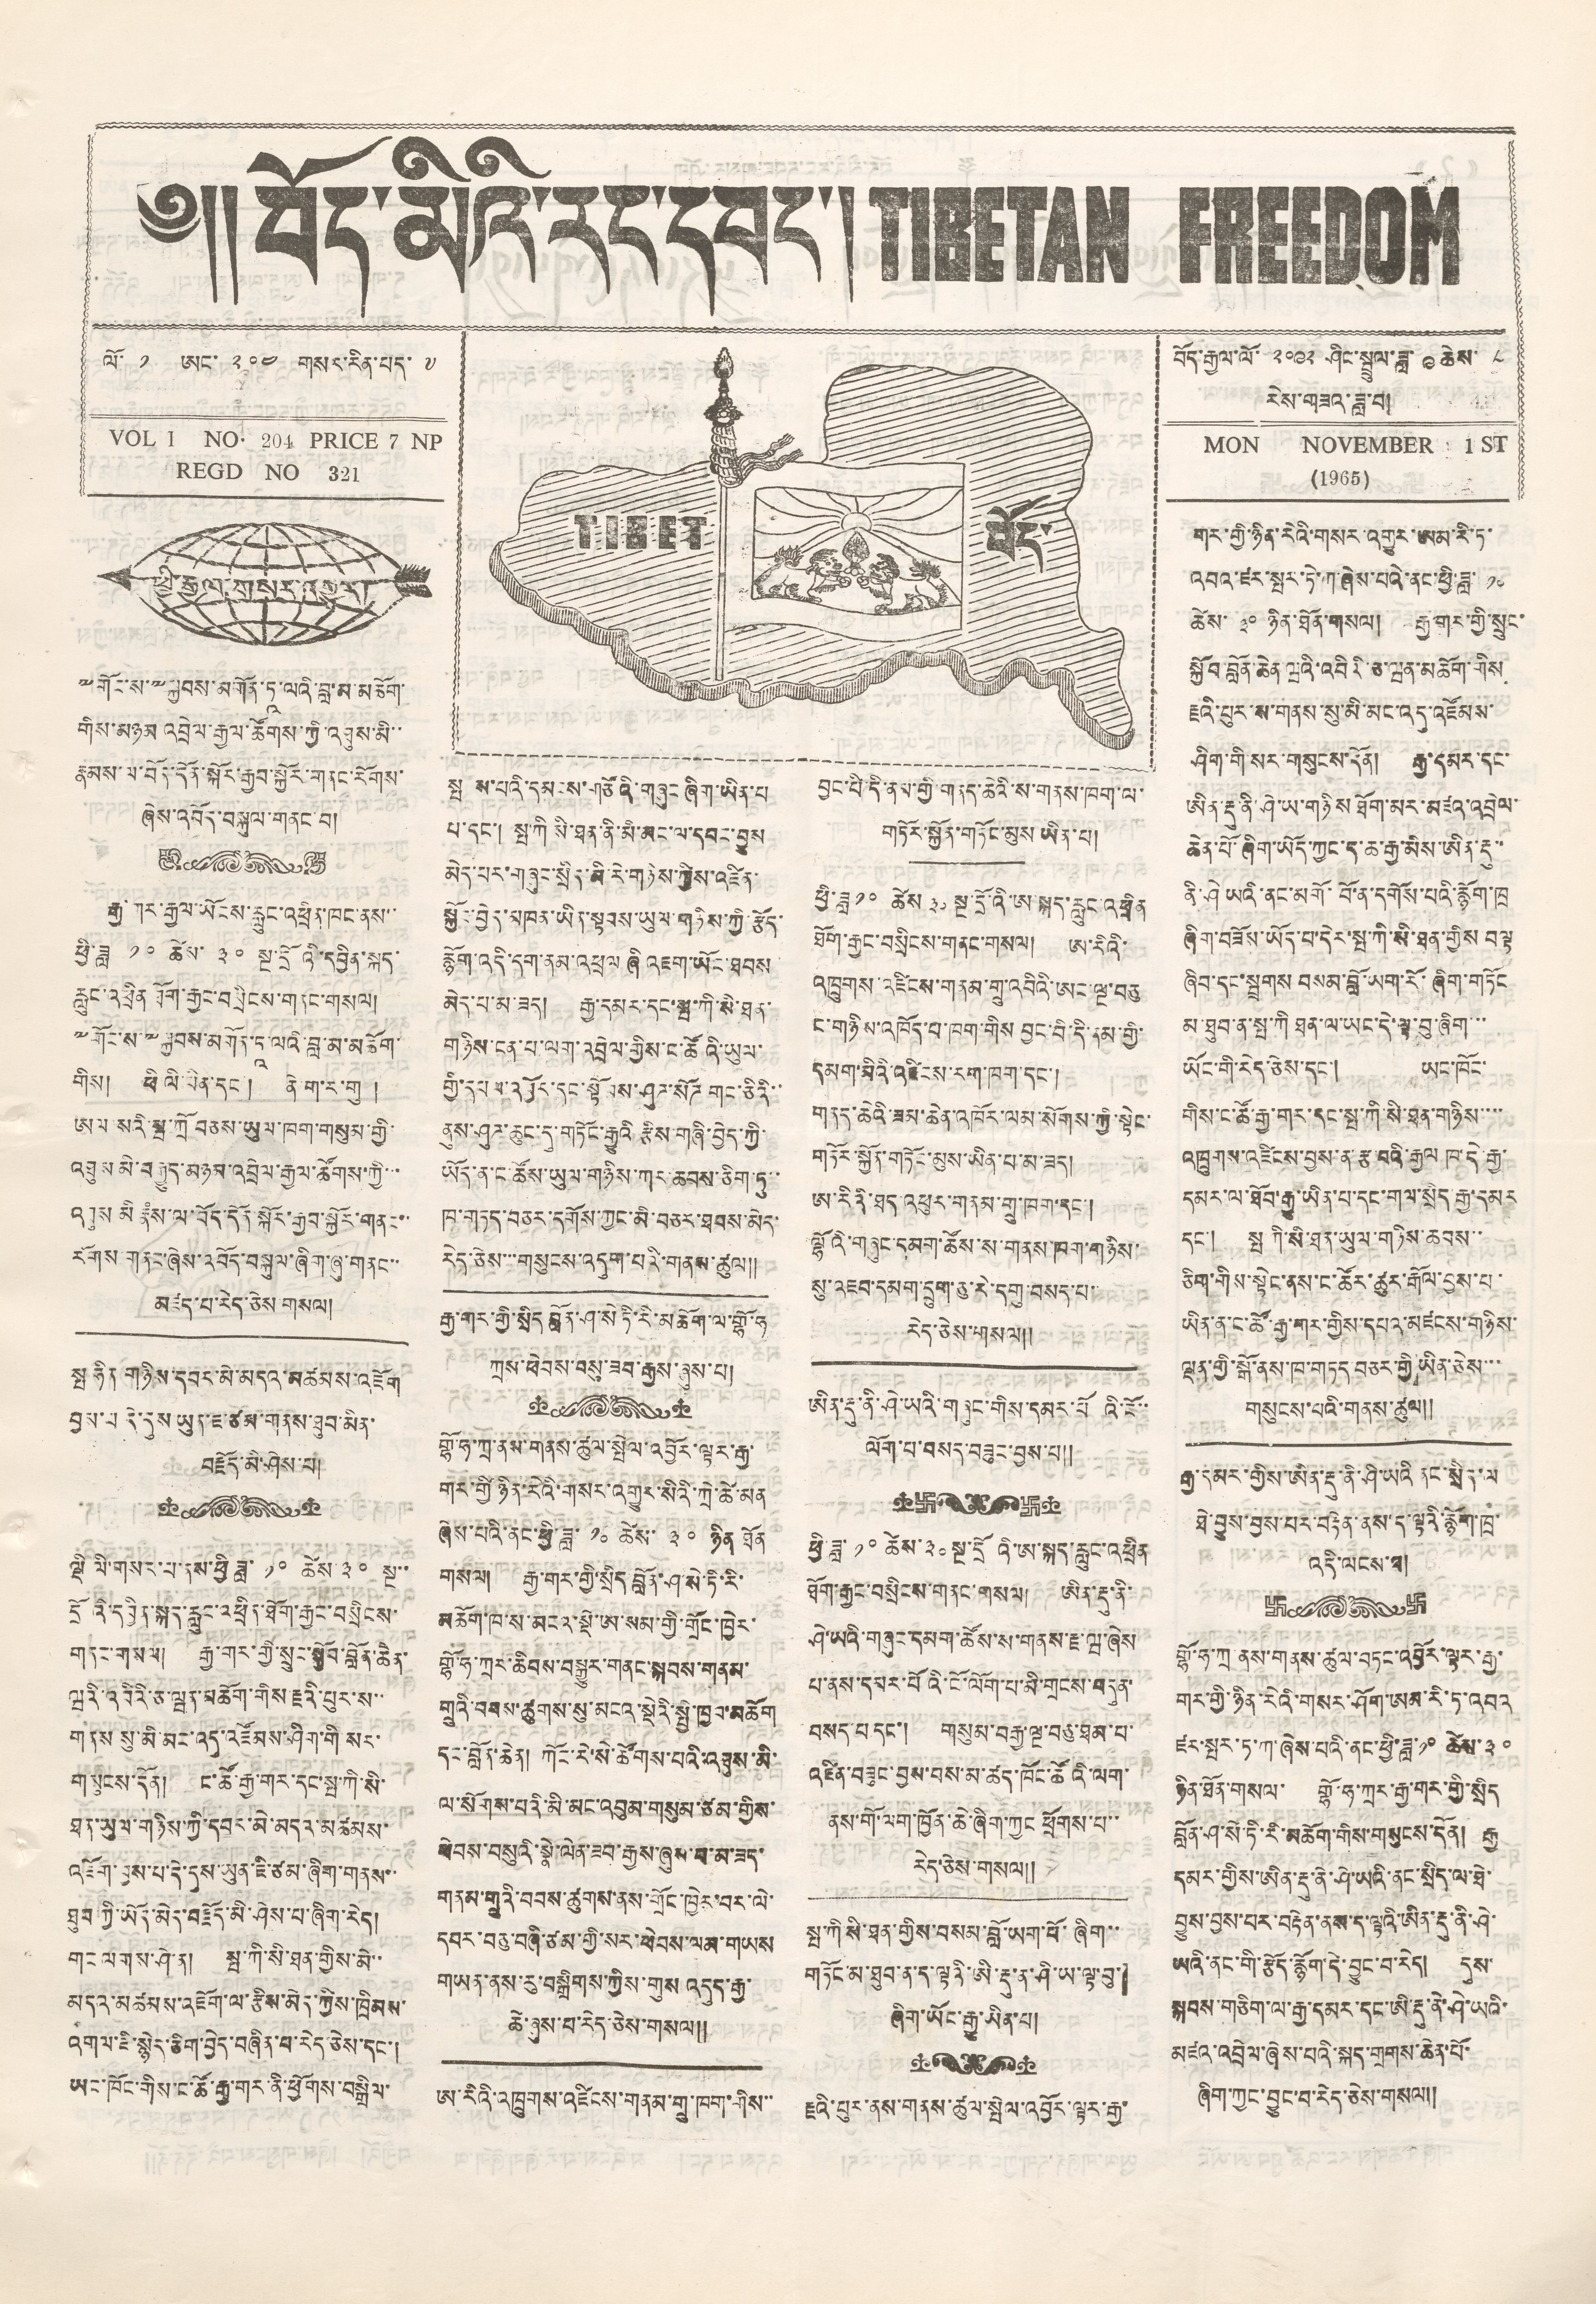༄།།བོད་མིའི་རང་དབང་། TIBETAN FREEDOM
TIBET བོད་
ལོ་ ༡ ཨང་ ༢༠༤ གསར་རིན་པད་ ༧
VOL 1 NO. 204 PRICE 7 NP
REDG NO 321
བོད་རྒྱལ་ལོ ༢༠༩༢ ཤིང་སྤྲུལ་ཟླ་ ༩ ཚེས་ ༨
རེས་གཟའ་ཟླ་བ།
MON NOVEMBER 1 ST
(1965)
ཕྱི་རྒྱལ་གསར་འགྱུར།
༸གོང་ས་༸སྐྱབས་མགོན་ཏྰ་ལའི་བླ་མ་མཆོག་
གིས་མཉམ འབྲེལ་རྒྱལ་ཚོགས་ཀྱི་འཐུན་མི་་
རྣམས་ལ་བོད་དོན་སྐོར་རྒྱབ་སྐྱོར་གནང་རོགས་
ཞེས་འབོད་བསྐུལ་གནང་བ།
རྒྱ་གར་ཡོངས་རླུང་འཕྲིན་ཁང་ནས་་
ཕྱི་ཟླ ༡༠ ཚེས་ ༣༠ སྔ་དྲོའི་དབྱིན་སྐད་
རླུང་འཕྲིན ཐོག་རྒྱང་བསྲིངས་གནང་གསལ།
༸གོང་ས་༸སྐྱབས་མགོན་ཏྰ་ལའི་བླ་མ་མཆོག་
གིས། ཕི་ལི་པིན་དང་། ནེ་ག་ར་གུ །
ཨལ་སའི་སྦ་ཀྲོ་བཅས་ཡུལ་ཁག་གསུམ་གྱི་
འཐུས མི་བརྒྱུད་མཉམ་འབྲེལ་རྒྱལ་ཚོགས་ཀྱི་་་
འཐུས མི རྣཾས་ལ་བོད་དོན་སྐོར་རྒྱབ་སྐྱོར་གནང་་
རོགས་གནང་ཞེས་འབོད་བསྐུལ་ཞིག་ཞུ་གནང་་
མཛད་པ་རེད་ཅེས་གསལ།
སྤ ཧིན གཉིས་དབར་མི་མདའ་མཚམས་འཇོག
བྱས་པ དེ་དུས ཡུན་ཇ་ཙམ་གནས་ཐུབ་མིན་
བརྗོད་མི་ཤེས་པ།
ལྡི ལི་གསར་པ་ནས་ཕྱི ཟླ་ ༡༠ ཚེས་ ༣༠ སྔ་་
དྲོའི་དབྱིན་སྐད་རླུང་འཕྲིན་ཐོག་རྒྱང་བསྲིངས་
གནང་གསལ། རྒྱ་གར་གྱི་སྲུང་སྐྱོབ་བློན་ཆེན་
ཝའི་འབིའི་ཅ་ཝན་མཆོག་གིས་རྗའི་པུར་ས་་
གནས སུ་མི་མང་འདུ་འཛོམས་ཤིག་གི་སར་
གསུངས་དོན། ང་ཚོ་རྒྱ་གར་དང་སྤ་ཀི་སི་
ཐན་ཡུལ་གཉིས་ཀྱི་དབར་མེ་མདའ་མཚམས་
འཇོག་བྱས་པ་དེ་དུས་ཡུན་ཇི་ཙམ་ཞིག་གནས་་
ཐུབ་ཀྱི་ཡོད་མེད་བརྗོད་མི་ཤེས་པ་ཞིག་རེད།
གང་ལགས་ཤེ་ན། སྤ་ཀི་སི་ཐན་གྱིས་མི་་
མདའ་མཚམས་འཇོག་ལ་རྩིས་མེད་ཀྱིས་ཁྲིམས་
འགལ་ཇི་སྙེད་ཅིག་བྱེད་བཞིན་པ་རེད་ཅེས་དང་།
ཡང་ཁོང་གིས་ང་ཚོ་རྒྱ་གར་ནི་ཕྱོགས་བསྒྲིལ་
སྤ ས་པའི་དམངས་གཙོའི་གཞུང་ཞིག་ཡིན་པ
པ་དང་། སྤ་ཀི་སི་ཐན་ནི་མི་མང་ལ་དབང་བྱུས་
མེད་པར་གཞུང་སྲིད་མི་རེ་གཉིས་ཀྱིས་འཛིན་
སྐྱོང་བྱེད་མཁན་ཡིན་སྟབས་ཡུལ་གཉིས་ཀྱི་རྩོད་
རྙོག་འདི་དག་ནམ་འཕྲལ ཞི འཇག་ཡོང་ཐབས
མེད་པ་མ་ཟད། རྒྱ་དམར་དང་སྤ་ཀི་སི་ཐན་
གཉིས་ངན་པ་ལག་འབྲེལ་གྱིས་ང་ཚོའི་ཡུལ་
གྱི་དཔལ་འབྱོར་དང་སྟོབས་ཤུཌ་སོཌ གང་ཅིའི་་
ནུས་ཤུཌ་ཆུང་དུ་གཏོང་རྒྱུའི རྩིས་གཞི་བྱེད་ཀྱི་
ཡོད་ན་ང་ཚོས་ཡུལ་གཉིས་ཀར་ཆབས་ཅིག་ཏུ་་
ཁ་གཏད་བཅར་དགོས་ཀྱང་མི་བཅར་ཐབས་མེད་
རེད་ཅེས་་་གསུངས་འདུག་པའི་གནས་ཚུལ།།
རྒྱ་གར་གྱི་སྲིད བློན་ཤ་སེ་ཏི་རི་མཆོག་ལ་གྷོ་ཧ
ཀྲས་ཕེབས་བསུ་ཟབ་རྒྱས་ཞུས་པ།
གྷོ་ཧ་ཀྲ་ནས་གནས་ཚུལ་སྤེལ་འབྱོར་ལྟར་རྒྱ་
གར་གྱི་ཉིན་རེའི་གསར་འགྱུར་སིའི་ཀྲེ་ཚེ་མན
ཞེས་པའི་ནང་ཕྱི་ཟླ་ ༡༠ ཚེས་ ༣༠ ཉིན ཐོན
གསལ། རྒྱ་གར་གྱི་སྲིད བློན་ཤ་སི་ཏི་རི་
མཆོག་ཁ་ས་མངའ་སྡེ་ཨ་སམ་གྱི་གྲོང་ཁྱེར་
གྷོ་ཧ་ཀྲར་ཆིབས་བསྒྱུར་གནང་སྐབས་གནམ་
གྲུའི་བབས་ཚུགས་སུ་མངའ་སྡེའི་སྤྱི་ཁྱབ་མཆོག
དང་བློན་ཆེན། ཀོང་རེ་སོ་ཚོགས་པའི་འཐུས་མི་
ལ་སོགས་པའི་མི་མང་འབུམ་གསུམ་ཙམ་གྱིས་
ཕེབས་བསུའི་སྣེ་ལེན་ཟབ་རྒྱས་ཞུས་པ་མ་ཟད་
གནམ་གྲུའི་བབས་ཚུགས་ནས་གྲོང་ཁྱེར་བར་ལེ་
དབར་བཅུ་བཞི་ཙམ་གྱི་སར་ཕེབས་ལམ་གཡས
གཡན་ནས་རུ་བསྒྲིགས་ཀྱིས་གུས འདུད་རྒྱ་
ཆེ་ཞུས་པ་རེད་ཅེས་གསལ།།
བྱང་པི་དི་ནམ་གྱི་གནད་ཆེའི་ས་གནས་ཁག་ལ་
གཏོར་སྐྱོན་གཏོང་མུས ཡིན་པ།
ཕྱི་ཟླ ༡༠ ཚེས་ ༣༠ སྔ་དྲོ་འི་ཨ་སྐད་རླུང་འཕྲིན
ཐོག་རྒྱང་བསྲིངས་གནང་གསལ། ཨ་རིའི་
འཁྲུགས་འཛིངས་གནམ་གྲུ་འབིའི་ཨང་ལྔ་བཅུ
ང་གཉིས་འཁོད་པ་ཁག་གིས བྱང་བི་དི་ནམ་གྱི་
དམགས་མིའི་འཛིངས་རག་ཁག་དང་།
གནད་ཆེའི་ཟམ་ཆེན་འཁོར་ལམ་སོགས་ཀྱི་སྟེང་
གཏོར་སྐྱོན་གཏོང་མུས་ཡིན་པ་མ་ཟད།
ཨ་རིའི་ཐད་འཕུར་གནམ་གྲུ་ཁག་དང་།
ལྷོའི་གཞུང་ཚོས་ས་གནས་ཁག་གཉིས་
སུ་འཇབ་དམག་དྲུག་ཅུ་རེ་དགུ་བསད་པ་་
རེད་ཅེས་གསལ།།
ཨིན་རྡུ་ནི་ཤེ་ཡའི་གཞུང་གིས་དམར་པོ འི་ངོ་་་
ལོག་པ་བསད་བཟུང་བྱས་པ།།
ཕྱི་ཟླ་ ༡༠ ཚེས་ ༣༠ སྔ་དྲོའི་ཨ་སྐད་རླུང་འཕྲིན
ཐོག་རྒྱང་བསྲིངས་གནང་གསལ། ཨིན་རྡུ་ནི་
ཤེ་ཡའི་གཞུང་དམག་ཚོས་ས་གནས་རྗ་ཝ་ཞེས
པ་ནས་དམར་པོའི་ངོ་ལོག་པ་མི་གྲངས་བདུན་
བསད་པ་དང་། གསུམ་བརྒྱ་ལྔ་བཅུ་ཐམ་པ་
འཛིན་ཟུང་བྱས་པས་མ་ཚད་ཁོང་ཚོའི་ལག་
ནས་གོ་ལག་ཁྱོན་ཆེ་ཞིག་ཀྱང ཕྲོགས་པ་་
རེད་ཅེས་གསལ།།
སྤ་ཀི་སི་ཐན་གྱིས་བསམ་བློ་ཡག་པོ་ཞིག་་
གཏོང་མ་ཐུབ་ན་ད་ལྟའི་ཨི་རྡུ་ནི་ཤི་ཡའི་ལྟ་བུ་
ཞིག་ཡོང་རྒྱུ་ཡིན་པ།
ཨ་རིའི་འཁྲུགས་འཛིངས་གནས་གྲུ་ཁག་གིས་་ རྗའི་པུར་ནས་གནས་ཚུལ་སྤེལ་འབྱོར་ལྟར་རྒྱ་
གར་གྱི་ཉིན་རེའི་གསར་འགྱུར་ཨམ་རི་ཏ་
འབའ་ཛར་སྤར་ཏེ་ཀ་ཞེས་པའི་ནང་ཕྱི་ཟླ་ ༡༠
ཚེས་ ༣༠ ཉིན་ཐོན་གསལ། རྒྱ་གར་གྱི་སྲུང་
སྐྱོབ་བློན་ཆེན་ཝའི་འབིའི་ཅ་ཝན་མཆོག་གིས
རྗའི་པུར་ས་གནས་སུ་མི་མང་འདུ་འཛོམས་
ཤིག་གི་སར་གསུངས་དོན། རྒྱ་དམར་དང་
ཨིན་རྡུ་ནི་ཤེ་ཡ་གཉིས ཐོག་མར་མཛའ་འབྲེལ་
ཆེན་པོ་ཞིག་ཡོད་ཀྱང་ད་ཆ་རྒྱ་མིས་ཨིན་རྡུ་་
ནི་ཤེ་ཡའི་ནང་མགོ་བོ་ན་དགོས་པའི་རྙོག་ཁྲ
ཞིག་བཟོས་ཡོད་པ་དེར་སྤ་ཀི་སི་ཐན་གྱིས བལྟ
ཞིབ་དང་སྦྲགས བསམ་བློ་ཡག་རོ་ཞིག་གཏོང
མ་ཐུབ་ན་སྤ་ཀི་ནི་ཐན་ལ་ཡང་དེ་ལྟ་བུ་ཞིག་་་
ཡོང་གི་རེད་ཅེས་དང་། ཡང་ཁོང་
གིས་ང་ཚོ་རྒྱ་གར་དང་སྤ་ཀི་སི་ཐན་གཉིས་་་་
འཁྲུགས་འཛིངས་བྱས་ན་རྩ་བའི་རྒྱལ ཁ་དེ་རྒྱ་
དམར་ལ་ཐོབ་རྒྱུ་ཡིན་པ་དང་གལ་སྲིད་རྒྱ་དམར
དང་། སྤ་ཀི་སི་ཐན་ཡུལ་གཉིས་ཆབས་་
ཅིག་གིས་སྟེང་ནས་ང་ཚོར་རྒོལ་བྱས་པ་
ཡིན་ན་ང་ཚོ་རྒྱ་གར་གྱིས་དཔའ་མཛངས་གཉིས་
ལྡན་གྱི་སྒོ་ནས་ཁ་གཏད་བཅར་གྱི ཡིན་ཅེས་་་
གསུངས་པའི་གནས་ཚུལ།།
རྒྱ་དམར་གྱིས་ཨིན་རྡུ་ནི་ཤི་ཡའི ནང་སྲིད་ལ
ཐེ་བྱུས་བྱས་པར་བརྟེན་ནས་ད་ལྟའི་རྙོག་ཁྲ་
འདི་ལངས་བ།
གྷོ་ཧ་ཀྲ་ནས་གནས་ཚུལ་བཏང་འབྱོར་ལྟར་རྒྱ་
གར་གྱི་ཉིན་རེའི་གསར་ཤོག་ཨམ་རི་ཏ་འབའ
ཛར་སྤར་ཏ་ཀ་ཞེས་པའི་ནང་ཕྱི་ཟླ ༡༠ ཚེས་ ༣༠
ཉིན་ཐོན་གསལ་ གྷོ་ཧ་ཀྲར་རྒྱ་གར་གྱི་སྲིད
བློན་ཤ་སེ་ཏི་རི་མཆོག་གིས་གསུངས་དོན། རྒྱ
དམར་གྱཻས་ཨིན་རྡུ་ནེ་ཤི་ཡའི་ནང་སྲིད་ལ་ཐེ་
བྱུས་བྱས་པར་བརྟེན་ནས་ད་ལྟའི་ཨིན་རྡུ་ནི་ཤེ་
པའི་ནང་གི་རྩོད་རྙོག་དེ་བྱུང་བ་རེད། དུས་
སྐབས་གཅིག་ལ་རྒྱ་དམར་དང་ཨི་རྡུ་ནེ་ཤེ་ཡའི་
མཛའ་འབྲེལ་ཞེས་པའི་སྐད་གྲགས་ཆེན་པོ་
ཞིག་ཀྱང་བྱུང་བ་རེད་ཅེས་གསལ།།
